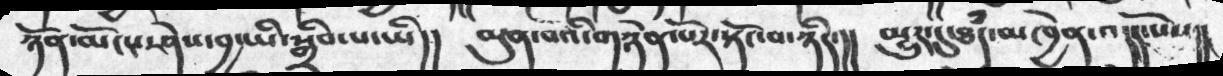ཉོན་མོངས་ཤེས་བྱ་ཡི་སྒྲིབ་པ་ཡི།།   མུན་པའི་གཉེན་པོར་སྟོང་པ་ཉིད་།།  མྱུར་དུ་ཐཾད་མཁྱེན་འདོད་པས།།
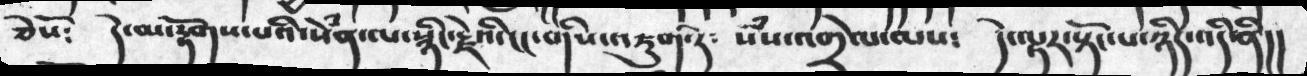ཅེསོ༴   དེ་མ་རྟོགས་པའི་སེཾན་ལ་སྙིང་རྗེའི་ངང་གིས་འཇུག་དེ༴  སེཾས་འགྲེལ་ལས༴  དེ་ལྟར་སྟོང་པ་ཉིད་འདི་ནི།།
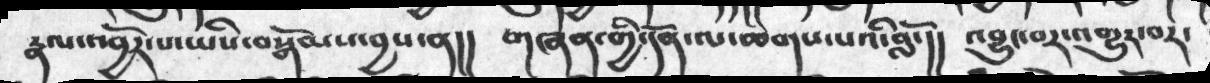རྣལ་འབྱོར་པ་ཡིས་བསྒོམས་བྱས་ན།།   གཞན་གྱི་དོན་ལ་ཆགས་པའི་བློ་།།  འབྱུང་བར་འགྱུར་བར་
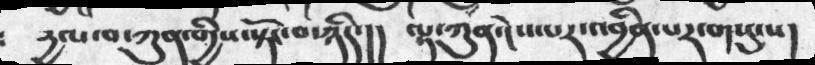དྱལ་བ་ཀུན་གྱིས་སྟོང་བ་ཉིད་།།  ལྷ་ཀུན་ངེས་པར་འབྱིན་པར་གསུངས།
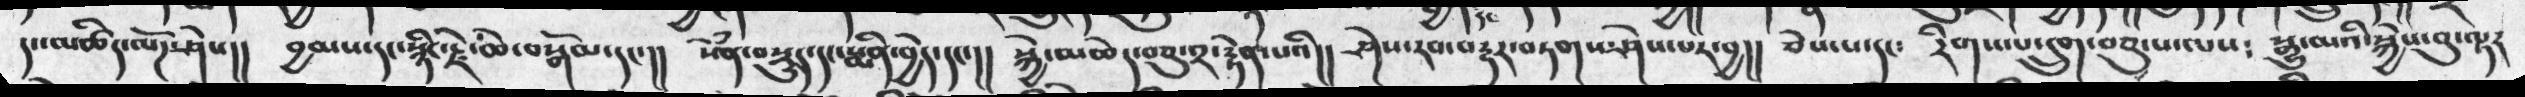དང་མཚིད་ལོཌ་ཤེས།།  བྱམས་དང་སྙིང་རྗེ་ཆེ་བསྒོམ་དང་།།  སེཾན་བསྡུད་དང་སྨིན་བྱེད་དང་།།   སྐྱེ་མཆེད་བཅུ་༢་རྟེན་པའི།།  ཤེས་རབ་བརྡར་བཏགས་ཤེས་པར་བྱ།།  ཅེས་པ་དང༴  རིགས་པ་དྲུག་བཅུ་པ་ལས༴  སྒྱུ་མའི་སྐྱེས་བུ་ལྟར
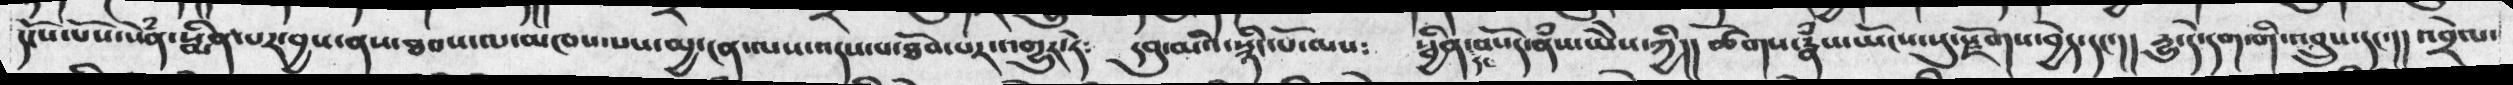དངོས་པོས་སེཾན་སྨིན་པར་བྱས་ནས་ཐབས་ལ་མཁས་པས་མྱ་ངན་ལས་འདས་པ་ཐོབ་པར་འགྱུར་ཏེ༴   དབུ་མའི་སྙིང་པོ་ལས༴   སྦྱིན་དང་བསོད་ནཾས་ཡེ་ཤེས་ཀྱི།།  ཚོགས་རྣཾས་ཡོངས་སུ་རྫོགས་བྱེད་དང་།།  དྱུ་དེ་དག་གི་འབྲུས་དང་།།  འབྲེལ་
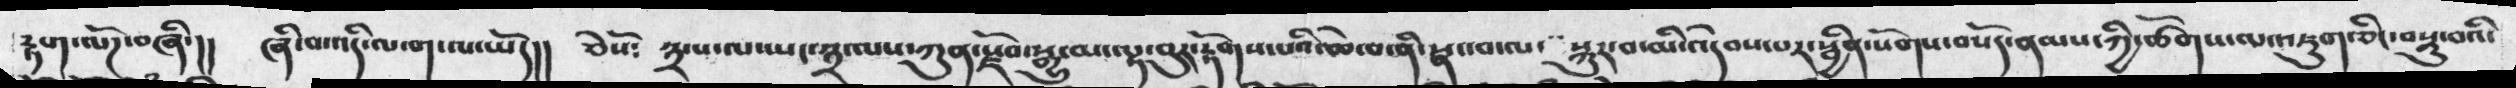རྟག་ལོཌ་བཞི་།།  ཞི་བ་འདི་ལ་ག་ལ་ཡོད།།  ཅེསོ༴  ༣་པ་ལ་ཡང་༣་ལས་ཀུན་རྫོབ་སྒྱུ་མ་ལྟ་བུར་རྟོགས་པའི་ཆེ་བ་ནི་སྣང་བ་ལ་  སྐུར་བ་མི་འདེབས་པར་སྦྱིན་སོགས་བསོད་ནམས་ཀྱི་ཚོགས་ལ་འཇུག་ཅིང་བསྡུ་བའི་
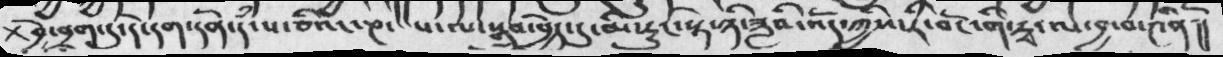+བྱེ་བྲག་དུ་དེ་དག་དོན་དཾ་པ་ཅིའང་ཎ་པ་ལ་སྒྲུབ་བྱེད་དུ་མི་རུང་སྟེ་ཉི་ཟླའི་འོད་ཀྱིས་རི་བོང་གི་རྭ་ལ་བྱ་བ་༤ིནོ།།
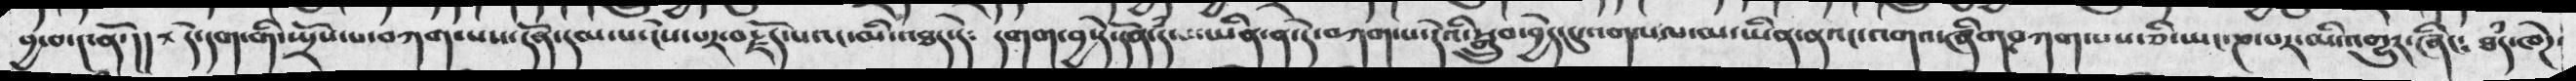བྱ་བ་༤ནོ་།། + དེ་དག་གི་སྤྲོས་པ་བཀག་པས་དོན་དམ་པ་ངེས་པར་བརྗོད་པའང་མ་འཐད་དེ༴   དགག་བྱ་དེ་དོན་དཾ་པ་ཡིན་ན་དེ་བཀག་པ་དེའི་སྒྲུབ་བྱེད་དུ་འགལ་བ་མ་ཡིན་ནའང་འགའ་ཞིག་བཀག་པས་ཅི་ཡང་ཎ་པར་མི་འགྱུར་ཞིང༴   ཐཾད་ཁེཌ་
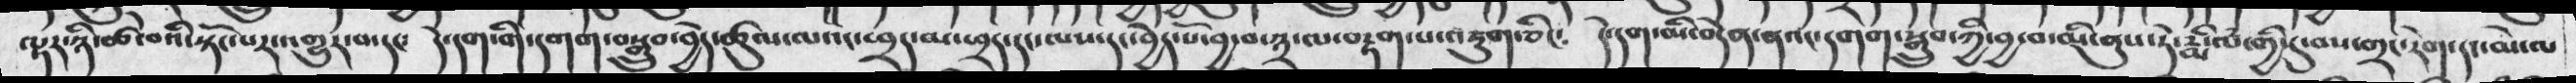ལྟར་ཉི་ཚེ་བའི་སྟོང་པར་འགྱུར་བ་དང༴  དེ་དག་གི་དགག་བསྒྲུབ་བྱེད་ཚུལ་ལའངཕྲད་མ་ཕྲད་དང་ལས་དང་བྱེད་པོ་བྱ་བ་༣་ལ་བརྟག་པ་འཇུག་ཅིང༴   དེ་དག་མི་བདེན་ནའང་དགག་སྒྲུབ་ཀྱི་བྱ་བ་མི་ནུས་ཏེ་རྨི་ལཾ་གྱི་དུ་བས་གྲང་རེག་དང་མེ་ལ
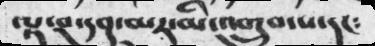ལྟ་བ་དབུ་མར་མི་འགྲུབ་པ་དང༴
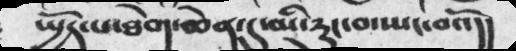སྤྱོད་པ་ཐེག་ཆེན་དུ་མི་རུང་བ་ཡང་བའོ།།
